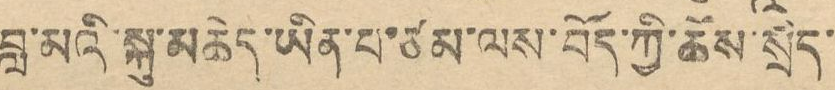བླ་མའི་སྐུ་མཆེད་ཡིན་པ་ཙམ་ལས་བོད་ཀྱི་ཆོས་སྲིད་
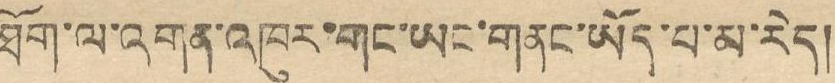ཐོག་ལ་འགན་འཁུར་གང་ཡང་གནང་ཡོད་པ་མ་རེད།
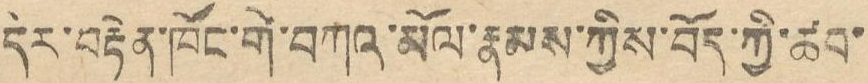དེར་བརྟེན་ཁོང་གི་བཀའ་མོལ་རྣམས་ཀྱིས་བོད་ཀྱི་ཚབ་
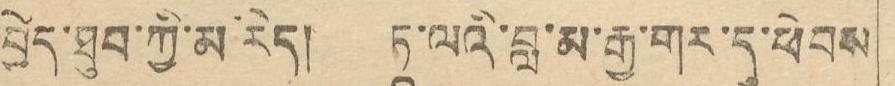བྱེད་ཐུབ་ཀྱི་མ་རེད། ཏཱ་ལའི་བླ་མ་རྒྱ་གར་དུ་ཕེབས
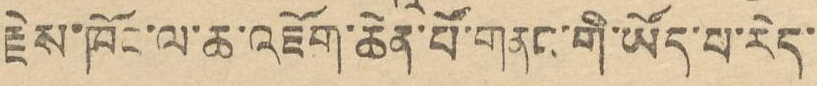རྗེས་ཁོང་ལ་ཆ་འཇོག་ཆེན་པོ་གནང་གི་ཡོད་པ་རེད་
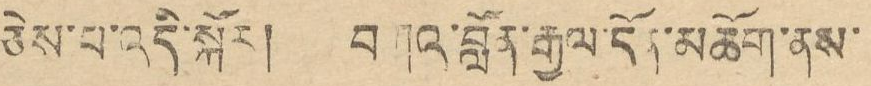ཅེས་པ་འདི་སྐོར། བཀའ་བློན་རྒྱལ་དོན་མཆོག་ནས་
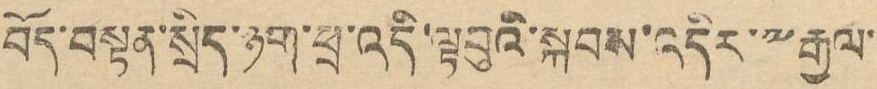བོད་བསྟན་སྲིད་ཉག་ཕྲ་འདི་ལྟབུའི་སྐབས་འདིར་༸རྒྱལ་
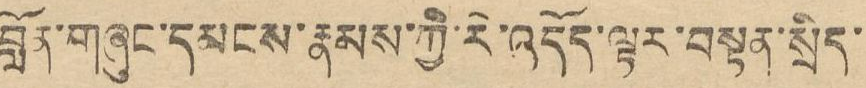བློན་གཞུང་དམངས་རྣམས་ཀྱི་རེ་འདོད་ལྟར་བསྟན་སྲིད་
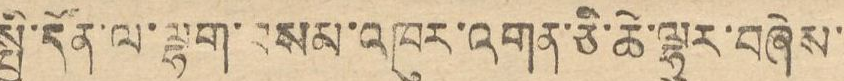སྤྱི་དོན་ལ་ལྷག་བསམ་འཁུར་འགན་ཅི་ཚེ་ལྷུར་བཞེས
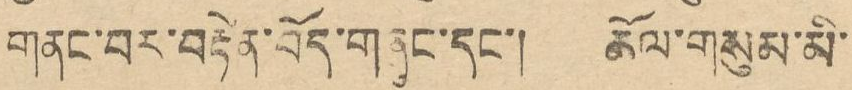གནང་བར་བརྟེན་བོད་གཞུང་དང་། ཆོལ་གསུམ་མི་
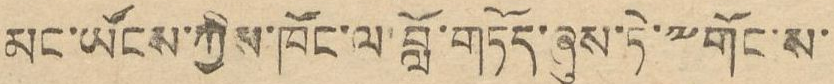མང་ཡོངས་ཀྱིས་ཁོང་ལ་བློ་གཏོད་ཞུས་ཏེ་༸གོང་ས་
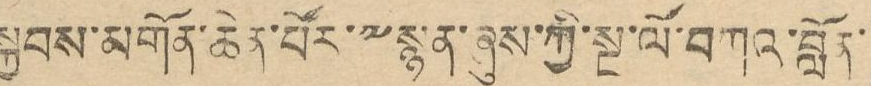སྐྱབས་མགོན་ཆེན་པོར་༸སྙན་ཞུས་ཀྱི་སྔ་ལོ་བཀའ་བློན་
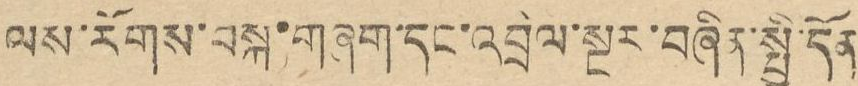ལས་རོགས་བསྐ་གཞག་དང་འབྲེལ་སྔར་བཞིན་སྤྱི་དོན
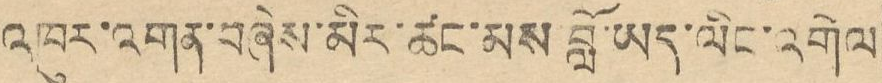འཁུར་འགན་བཞེས་མིར་ཚང་མས བློ་ཡད་ཡིང་འགེལ
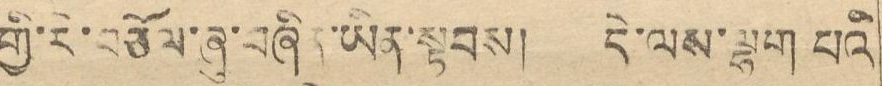གྱི་རི་བཅོལ་ཞུ་བཞིན་ཡིན་སྟབས། དེ་ལས་ལྷག པའི
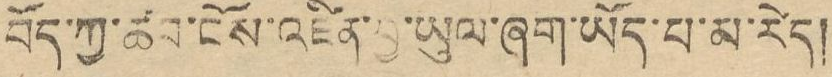བོད་ཀྱི་ཚབ་ངོས་འཛིན་བྱགྱ་ཡུལ་ཞག་ཡོད་པ་མ་རེད།
